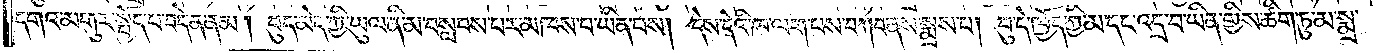དགའ་མགུར་སྤྱོད་པ་བདེན་ནམ། བུད་མེད་ཀྱི་ཡུལ་ནི་མ་བསླབས་པར་མཁས་པ་ཡིན་པས། དེས་དེའི་ཁ་ལག་པས་བཀབ་ནས་སྨྲས་པ། བུ་དེ་ཁྱོད་ཀྱི་མ་དང་འདྲ་བ་ཡིན་གྱིས་ཚིག་ཏུ་མ་སྨྲ་
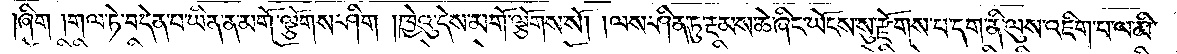།ཞིག །གལ་ཏེ་བདེན་པ་ཡིན་ན་མགོ་ལྕོགས་ཤིག །ཁྱེའུ་དེས་མགོ་ལྕོགས་སོ། །ལས་ཤིན་ཏུ་རྔམས་ཆེ་ཞིང་ཡོངས་སུ་རྫོགས་པ་དག་ནི་ལུས་འཇིག་པ་ལ་མི་
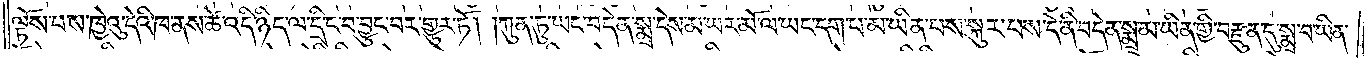ལྟོས་པས་ཁྱེའུ་དེའི་ཁ་ནས་ཚེ་འདི་ཉིད་ལ་དྲི་ང་བ་བྱུང་བར་གྱུར་ཏོ། །ཀུན་ཏུ་ཡང་བདེན་སྨྲ་དེས་མ་ཡར་མོ་ལ་ཡང་དག་པ་མ་ཡིན་པས་སྐུར་པས་དེ་ནི་བདེན་སྨྲ་མ་ཡིན་གྱི་བརྫུན་དུ་སྨྲ་བ་ཡིན་
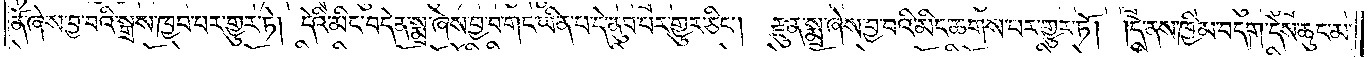ནོ་ཞེས་བྱ་བའི་སྒྲས་ཁྱབ་པར་གྱུར་ཏེ། དེའི་མིང་བདེན་སྨྲ་ཞེས་བྱ་བ་གང་ཡིན་པ་དེ་ནུབ་པར་གྱུར་ཅིང༌། རྫུན་སྨྲ་ཞེས་བྱ་བའི་མིང་ཆགས་པར་གྱུར་ཏོ། །དེ་ནས་ཁྱིམ་བདག་དེས་ཆུང་མ་
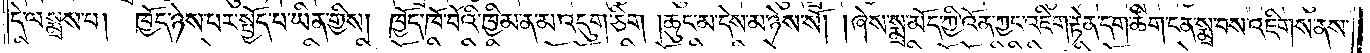དེ་ལ་སྨྲས་པ། ཁྱོད་ཉེས་པར་སྤྱོད་པ་ཡིན་གྱིས། ཁྱོད་ཁོ་བོའི་ཁྱིམ་ན་མ་འདུག་ཅིག །ཆུང་མ་དེས་མཉེས་སོ། །ཞེས་སྨྲ་མོད་ཀྱི་འོན་ཀྱང་འཇིག་རྟེན་དག་ཚིག་ངན་སྨྲ་བས་འཇིགས་ནས་
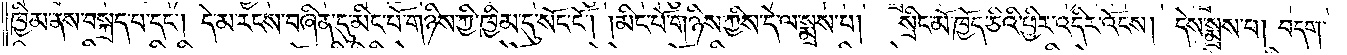ཁྱིམ་ནས་བསྐྲད་པ་དང༌། དེ་མ་རངས་བཞིན་དུ་མིང་པོ་གཉིས་ཀྱི་ཁྱིམ་དུ་སོང་ངོ༌། །མིང་པོ་གཉིས་ཀྱིས་དེ་ལ་སྨྲས་པ།<gap>སྲིང་མོ་ཁྱོད་ཅིའི་ཕྱིར་འདིར་འོངས། དེས་སྨྲས་པ། བདག་
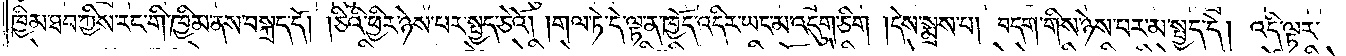ཁྱིམ་ཐབ་ཀྱིས་རང་གི་ཁྱིམ་ནས་བསྐྲད་དོ། །ཅིའི་ཕྱིར་ཉེས་པར་སྤྱད་ཅེའོ། །གལ་ཏེ་དེ་ལྟ་ན་ཁྱོད་འདིར་ཡང་མ་འདུག་ཅིག །དེས་སྨྲས་པ། བདག་གིས་ཉེས་པར་མ་སྤྱད་དེ། འདི་ལྟར་
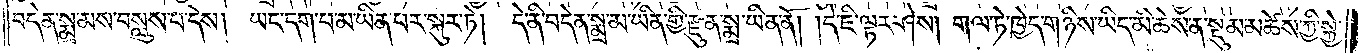བདེན་སྨྲ་མས་བསླུས་པ་དེས། ཡང་དག་པ་མ་ཡིན་པར་བསྐུར་ཏེ། དེ་ནི་བདེན་སྨྲ་མ་ཡིན་གྱི་རྫུན་སྨྲ་ཡིན་ནོ། །དེ་ཇི་ལྟར་ཤེས། གལ་ཏེ་ཁྱེད་གཉིས་ཡིད་མི་ཆེས་ན་སྡུམ་མཚེས་ཀྱི་སྐྱེ་
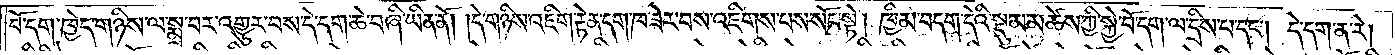བོ་དག་ཁྱེད་གཉིས་ལ་སྨྲ་བར་འགྱུར་བས་དེ་དག་ཆེ་བཞི་ཡིན་ནོ། །དེ་གཉིས་འཇིག་རྟེན་དག་ཁ་ཟེར་བས་འཇིགས་པས་སོང་སྟེ། ཁྱིམ་བདག་དེའི་སྡུམ་མཚེས་ཀྱི་སྐྱེ་བོ་དག་ལ་དྲིས་པ་དང༌། དེ་དག་ན་རེ།
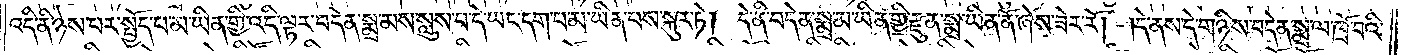འདི་ནི་ཉེས་པར་སྤྱོད་པ་མ་ཡིན་གྱི་འདི་ལྟར་བདེན་སྨྲ་མས་སླུས་པ་དེ་ཡང་དག་པ་མ་ཡིན་པས་སྐུར་ཏེ། དེ་ནི་བདེན་སྨྲ་མ་ཡིན་གྱི་རྫུན་སྨྲ་ཡིན་ནོ་ཞེས་ཟེར་རོ། །དེ་ནས་དེ་གཉིས་བདེན་སྨྲ་ལ་ཁྲོ་བའི་
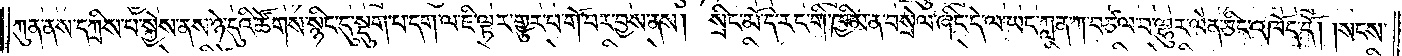ཀུན་ནས་དཀྲིས་པ་སྐྱེས་ནས་ཉེ་དུའི་ཚོགས་སྙིང་དུ་སྡུག་པ་དག་ལ་ཇི་ལྟར་གྱུར་པ་གོ་བར་བྱས་ནས། སྲིང་མོ་དེ་རང་གི་ཁྱིམ་ན་བསྲེལ་ཞིང་དེ་ལ་ཡང་ཀླན་ཀ་བཙལ་བ་ལྷུར་ལེན་ཅིང་འཁོད་དོ། །སངས་
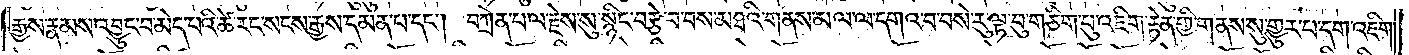རྒྱས་རྣམས་འབྱུང་བ་མེད་པའི་ཚེ་རང་སངས་རྒྱས་དམན་པ་དང༌། བཀྲེན་པ་ལ་རྗེས་སུ་སྙིང་བརྩེ་བ་བས་མཐའི་གནས་མལ་ལ་དགའ་བ་བསེ་རུ་ལྟ་བུ་གཅིག་པུ་འཇིག་རྟེན་གྱི་གནས་སུ་གྱུར་པ་དག་འཇིག་
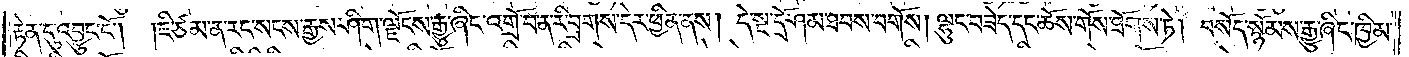རྟེན་དུ་འབྱུང་ངོ༌། །ཇི་ཙམ་ན་རང་སངས་རྒྱས་ཤིག་ལྗོངས་རྒྱུ་ཞིང་འགྲོ་བ་ན་རི་བྲགས་དེར་ཕྱིན་ནས། དེ་སྔ་དྲོ་ཤམ་ཐབས་བགོས། ལྷུང་བཟེད་དང་ཆོས་གོས་ཐོགས་ཏེ། བསོད་སྙོམས་རྒྱུ་ཞིང་ཁྱིམ་
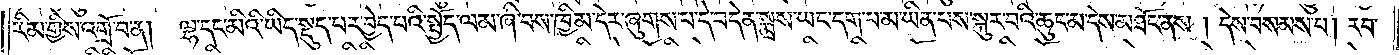རིམ་གྱིས་འགྲོ་བ་ན།<gap>ལྷ་དང་མིའི་ཡིད་སྡུད་པར་བྱེད་པའི་སྤྱོད་ལམ་ཞི་བས་ཁྱིམ་དེར་ཞུགས་པ་དེ་བདེན་སྨྲས་ཡང་དག་པ་མ་ཡིན་པས་སྐུར་བའི་ཆུང་མ་དེས་མཐོང་ནས། དེས་བསམས་པ། རབ་
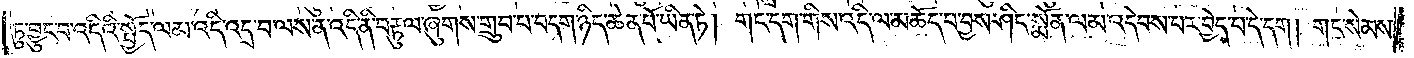ཏུ་བྱུང་བ་འདིའི་སྤྱོད་ལམ་འདི་འདྲ་བ་ལས་ན་འདི་ནི་བརྟུལ་ཞུགས་གྲུབ་པ་བདག་ཉིད་ཆེན་པོ་ཡིན་ཏེ། གང་དག་གིས་འདི་ལ་མཆོད་པ་བྱས་ཤིང་སྨོན་ལམ་འདེབས་པར་བྱེད་པ་དེ་དག། གང་སེམས་
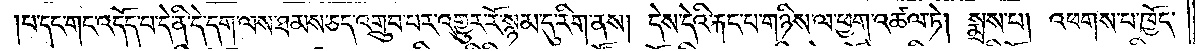པ་དང་གང་འདོད་པ་དེ་ནི་དེ་དག་ལས་ཐམས་ཅད་འགྲུབ་པར་འགྱུར་རོ་སྙམ་དུ་རིག་ནས། དེས་དེའི་རྐང་པ་གཉིས་ལ་ཕྱག་འཚལ་ཏེ། སྨྲས་པ། འཕགས་པ་ཁྱོད་
